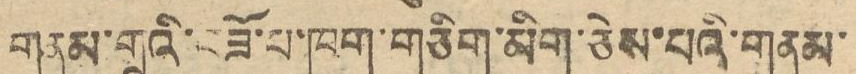གནམ་གྲུའི་བཟོ་ཁག་གཅིག་མིག་ཅེས་པའི་གནམ་
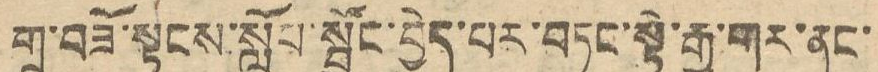གྲུ་བཟོ་སྟངས་སློབ་སྦྱོང་བྱེད་པར་བཏང་སྟེ་རྒྱ་གར་ནང་
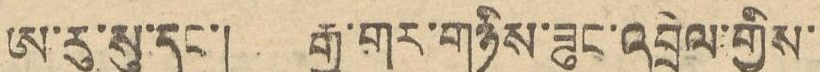ཨུ་རུ་སུ་དང་། རྒྱ་གར་གཉིས་ཟུང་འབྲེལ་གྱིས་
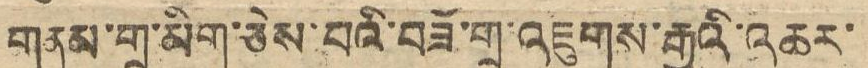གནམ་གྲུ་མིག་ཅེས་པའི་བཟོ་གྲ་འཛུགས་རྒྱུའི་འཆར་
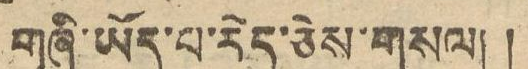གཞི་ཡོད་པ་རེད་ཅེས་གསལ། །
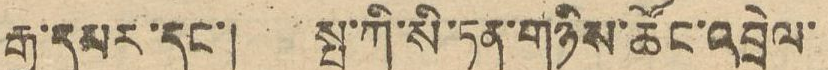རྒྱ་དམར་དང་། སྤ་ཀི་སི་ཏན་གཉིས་ཚོང་འབྲེལ་
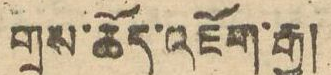གྲས་ཆོད་འཇོག་རྒྱུ།
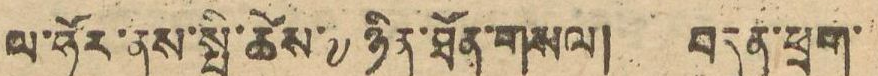ལ་ཧོར་ནས་སྤྱི་ཚེས་ ༧ ཉིན་ཐོན་གསལ། བདུན་ཕྲག་
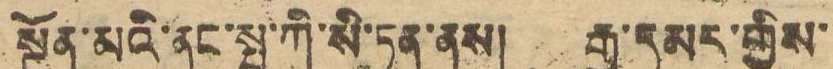སྔོན་མའི་ནང་སྤ་ཀི་སི་ཏན་ནས། རྒྱ་དམར་གྱིས་
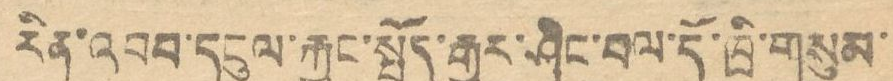རིན་འབབ་དངུལ་རྐྱང་སྤྲོད་རྒྱུར་ཤིང་བལ་དོ་ཁྲི་གསུམ་
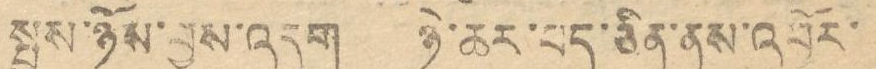སྤུས་ཉོས་བྱས་འདུག ཉེ་ཆར་པད་ཅིན་ནས་འབོར་
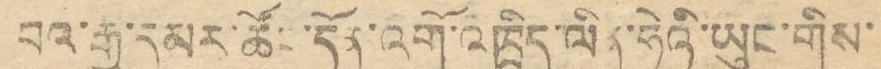བའི་རྒྱ་དམར་ཚོང་དོན་འགོ་འཁྲིད་ལིན་ཧེའི་ཡུང་གིས་
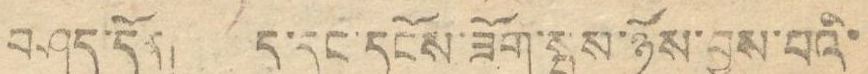བཤད་དོན། ད་དུང་དངོས་ཟོག་སྤུས་ཉོས་བྱས་པའི་
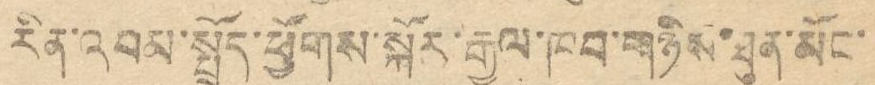རིན་འབམ་སྤྲོད་ཕྱོགས་སྐོར་རྒྱལ་ཁབ་གཉིས་ཐུན་མོང་
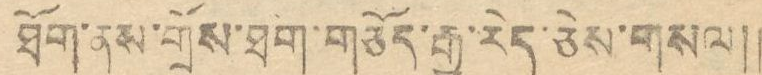ཐོག་ནས་གྲོས་ཐག་གཅོད་རྒྱུ་རེད་ཅེས་གསལ།།
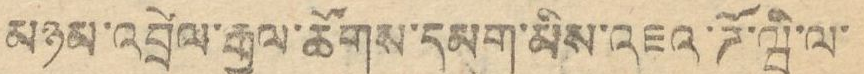མཉམ་འབྲེལ་རྒྱལ་ཚོགས་དམག་མིས་འཇའ་ཌོ་ལྦི་ལ་
